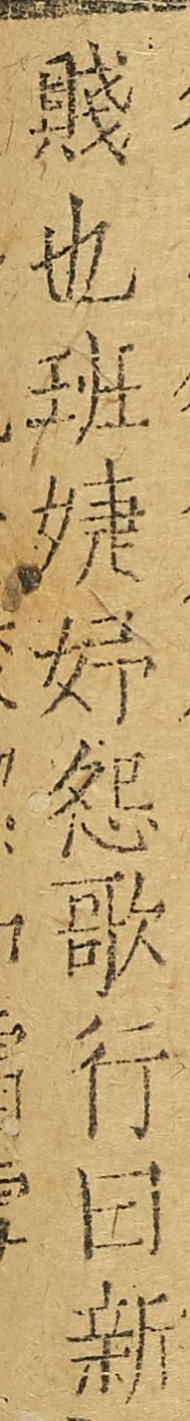賤也班婕妤怨歌行曰新
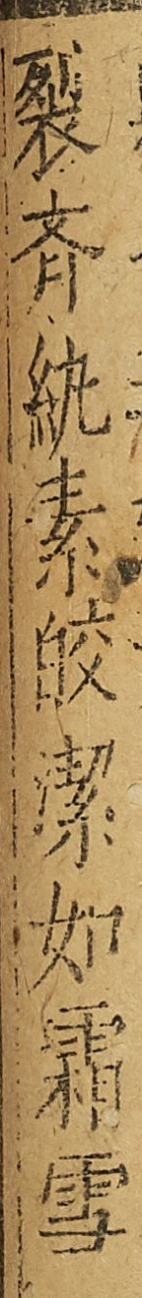裂齊紈素皎潔如霜雪
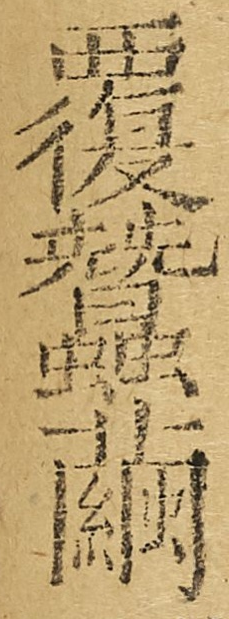覆蠶繭
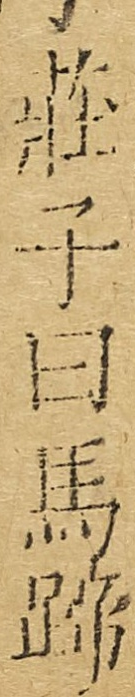莊子曰馬蹄
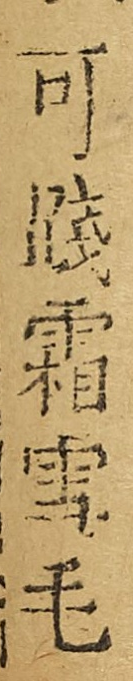可踐霜雪毛
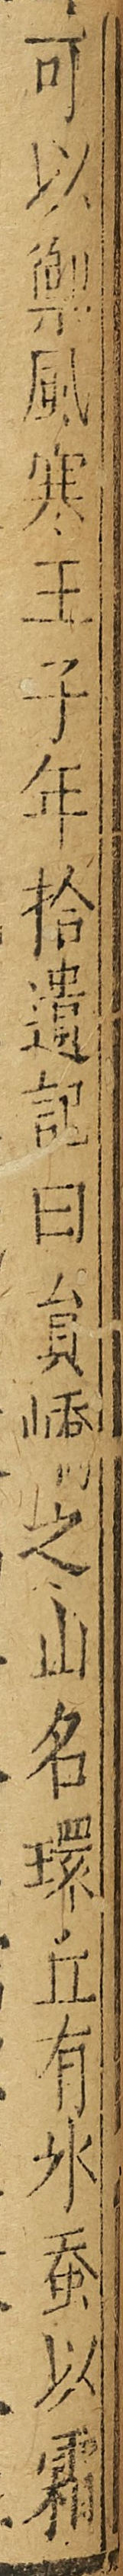可以禦風寒王子年拾遺記曰員嶠之山名環丘有冰蠶以霜
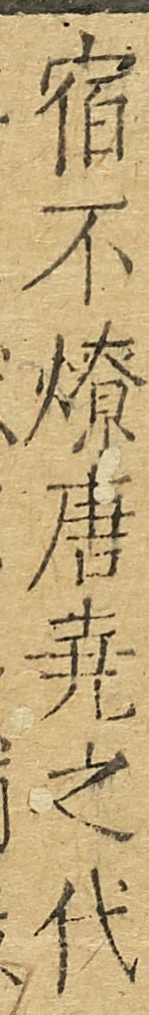宿不燎唐堯之代
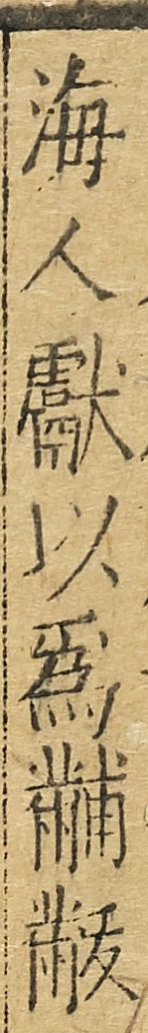海人獻以爲黼黻
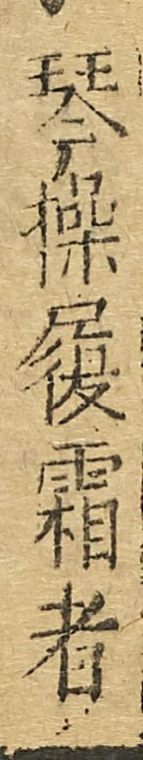琴操履霜者
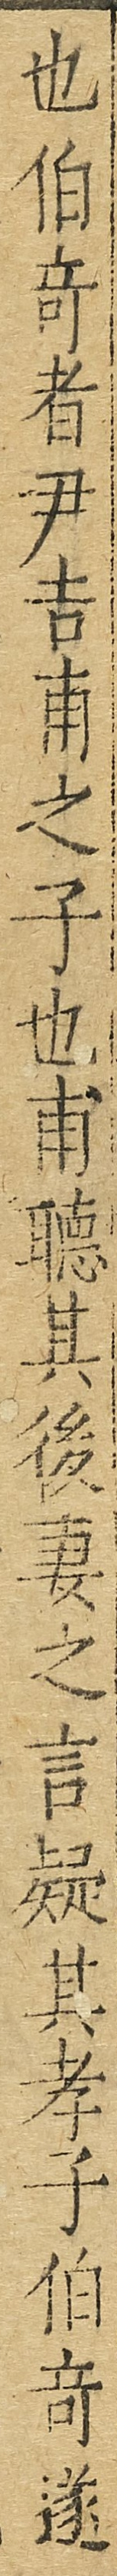也伯奇音尹吉甫之子也甫聽其後妻之言疑其孝子伯奇遂
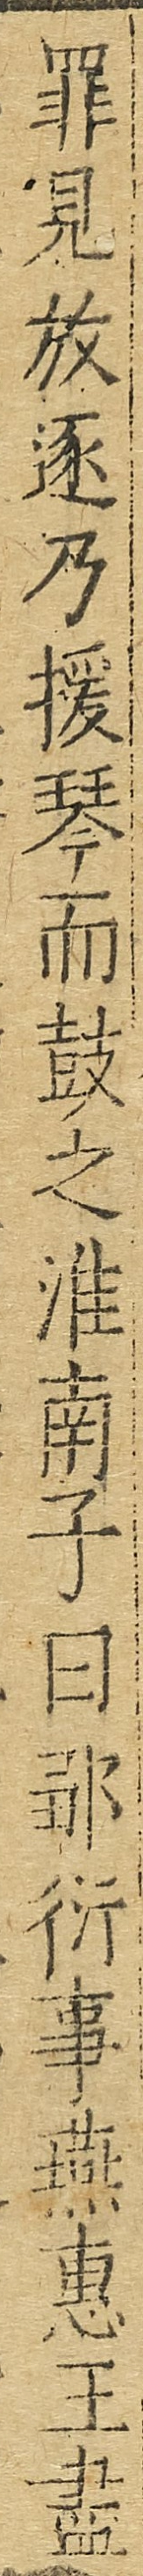罪見放逐乃援琴而鼓之淮南子曰鄒衍事燕惠王盡
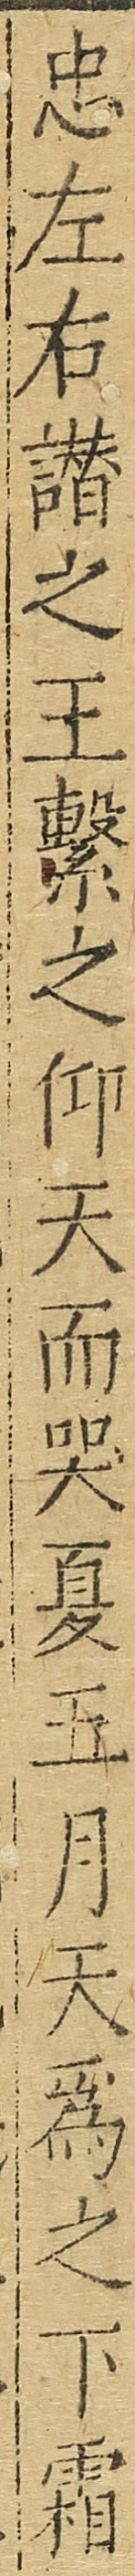忠左右贊之王繫之仰天而哭夏五月天爲之下霜
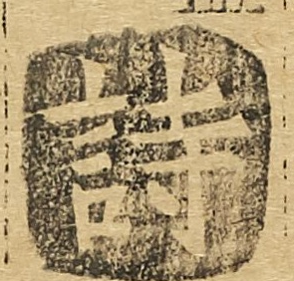詩
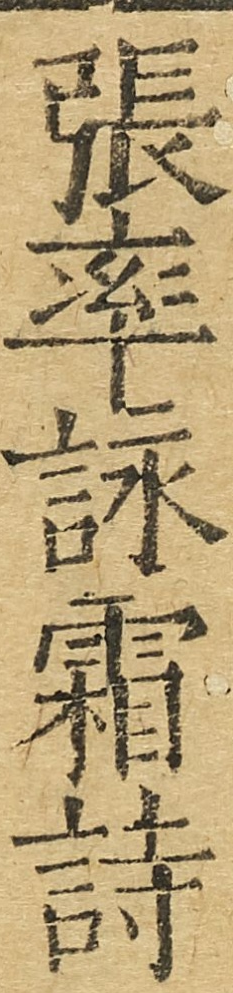張率詠霜詩
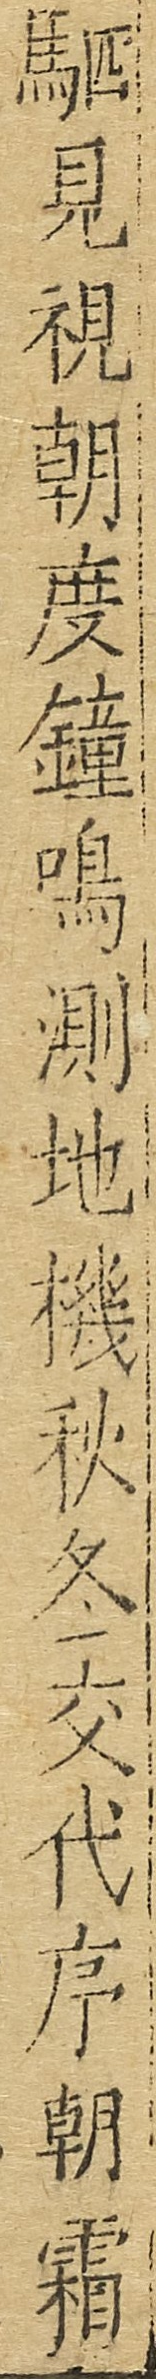駟見視乾度鐘鳴測地機秋冬交代序朝霜
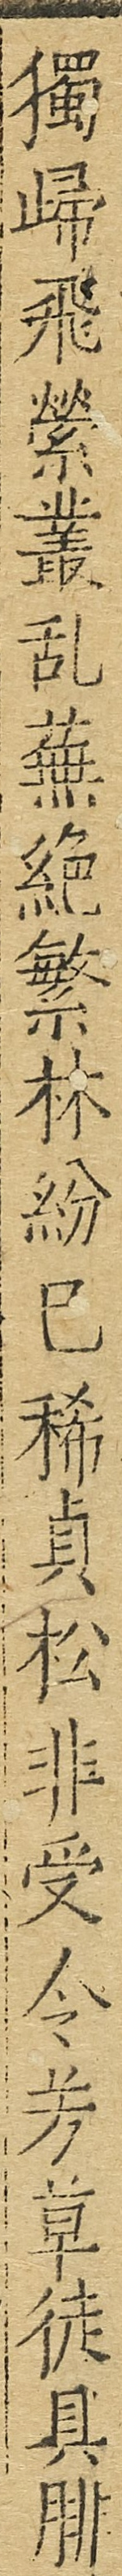獨歸飛縈叢亂蕪絕繁林紛已稀貞松非受冷芳草徒具腓
